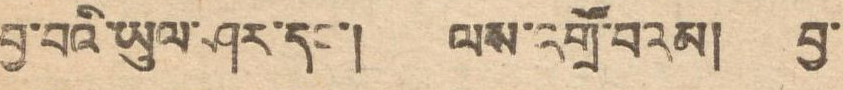བྱ་བའི་ཡུལ་ཤར་དང་། ལས་འགྲོ་བའམ། བྱ་
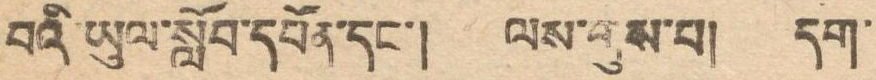བའི་ཡུལ་སློབ་དཔོན་དང་། ལས་གུས་པ། དག་
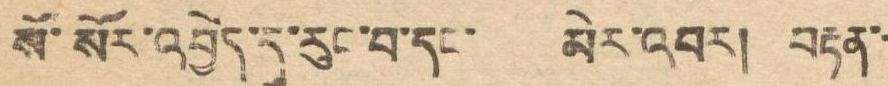སོ་སོར་འབྱེད་དུ་རུང་བ་དང་ མེར་འབར། བརྟན་་
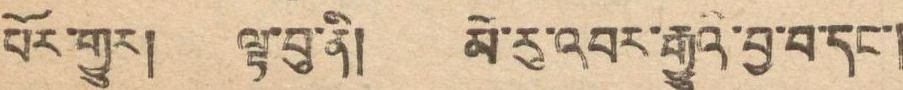པོར་གྱུར། ལྟ་བུ་ནི། མེ་རུ་འབར་རྒྱུའི་བྱ་བ་དང་།
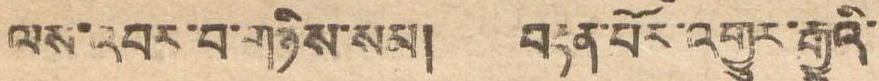ལས་འབར་བ་གཉིས་སམ། བརྟན་པོར་འགྱུར་རྒྱུའི་
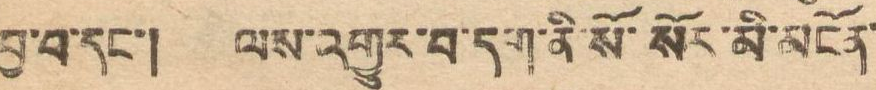བྱ་བ་དང་། ལས་འགྱུར་བ་དག་ནི་སོ་སོར་མི་མངོན་
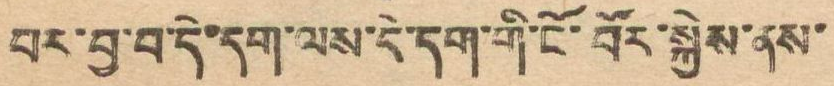པར་བྱ་བ་དེ་དག་ལས་དེ་དག་གི་ངོ་བོར་སྐྱེས་ནས་
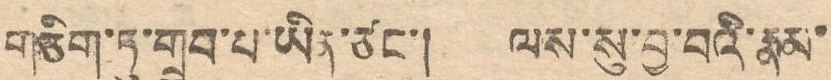གཅིག་ཏུ་གྲུབ་པ་ཡིན་ཙང་། ལས་སུ་བྱ་བའི་རྣམ་
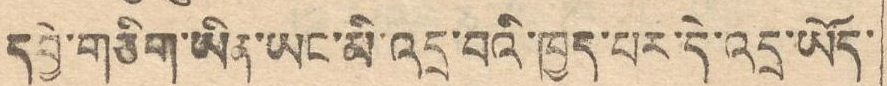དབྱེ་གཅིག་ཡིན་ཡར་མི་འདྲ་བའི་ཁྱད་པར་དེ་འདྲ་ཡོད་
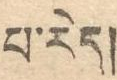པ་རེད།
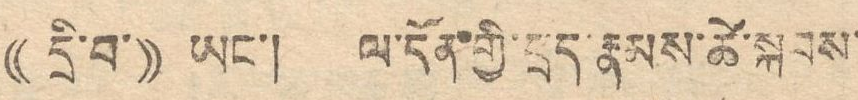((དྲི་བ་)) ཡང་། ལ་དོན་གྱི་དྲན་རྣམས་ཚེ་སྐབས་
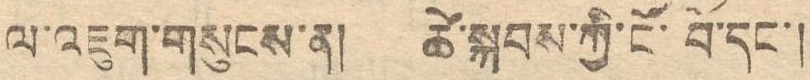ལ་འཇུག་གསུངས་ན། ཚེ་སྐབས་ཀྱི་ངོ་བོ་དང་།
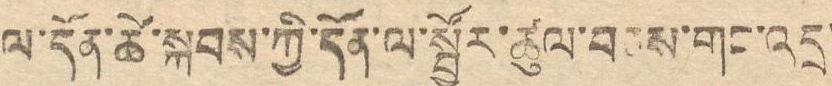ལ་དོན་ཚེ་སྐབས་ཀྱི་དོན་ལ་སྦྱོར་ཚུལ་བཅས་གང་འདྲ་
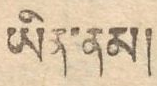ཡིན་ནམ།
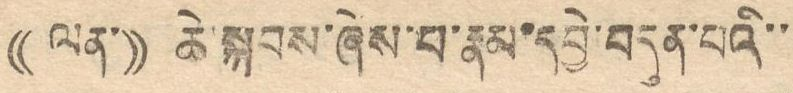(( ལན་)) ཆེ་སྐབས་ཞེས་པ་རྣམ་དབྱེ་བདུན་པའི་་
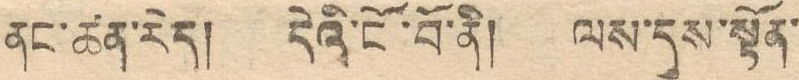ནང་ཚན་རེད། དེའི་ངོ་བོ་ནི། ལས་དུས་སྟོན་
